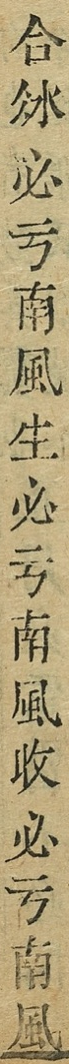合冰必亏南風生必亏南風收必亏南風
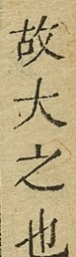故大之也
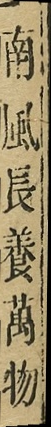南風長養萬物
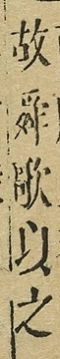故舜歌以之
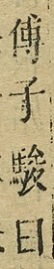傅子駿曰
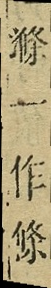滌一作條
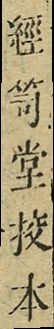經筍堂校本
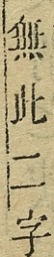無此二字
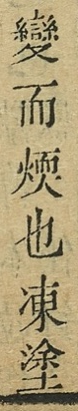變而煗也凍塗
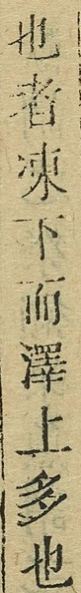也者凍下而澤上多也
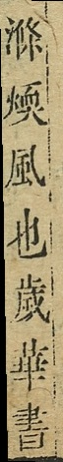滌煗風也歲華書
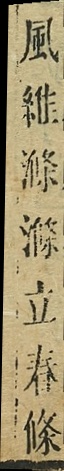風維滌滌立春條
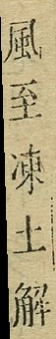風至凍土解
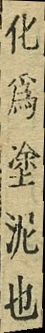化為塗泥也
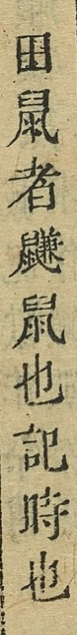田鼠者鼸鼠也記時也
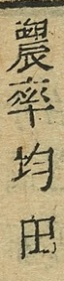農率均田
